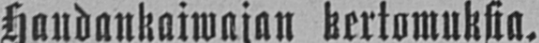Haudankaiwajan kertomuksia.
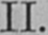II.
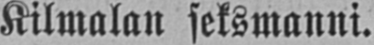Kilmalan seksmanni.
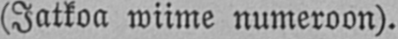(Jatkoa wiime numeroon).
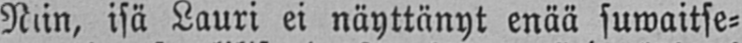Niin, isä Lauri ei näyttänyt enää suwaitse-
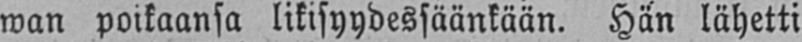wan poikaansa likisyydessäänkään. Hän lähetti
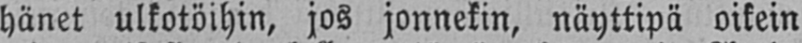hänet ulkotöihin, jos jonnekin, näyttipä oikein
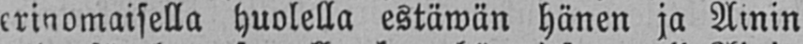erinomaisella huolella estäwän hänen ja Ainin
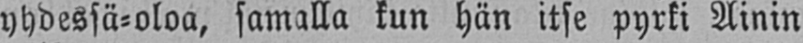yhdessä-oloa, samalla kun hän itse pyrki Ainin
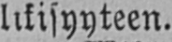likisyyteen.
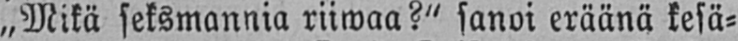„Mikä seksmannia riiwaa?" sanoi eräänä kesä-
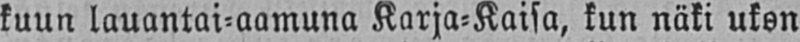kuun lauantai-aamuna Karja-Kaisa, kun näki ukon
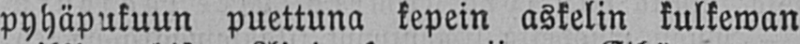pyhäpukuun puettuna kepein askelin kulkewan
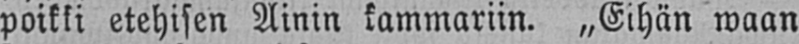poikki etehisen Ainin kammariin. „Eihän waan
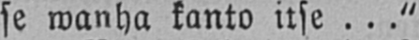se wanha kanto itse ..."
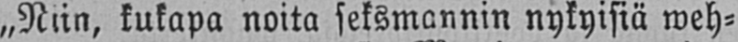„Niin, kukapa noita seksmannin nykyisiä weh-
